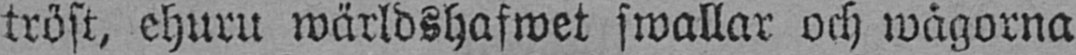tröst, ehuru wärldshafwet swallar och wågorna
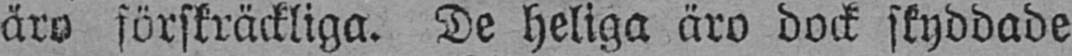äro förskräckliga. De heliga äro dock skyddade
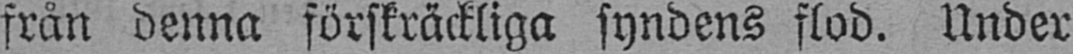från denna förskräckliga syndens flod. Under
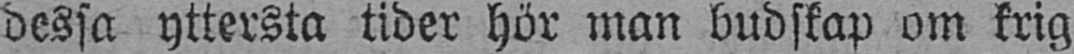dessa yttersta tider hör man budskap om krig
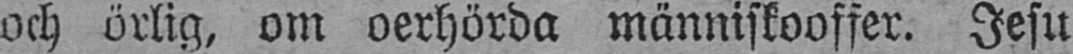och örlig, om oerhörda människooffer. Jesu
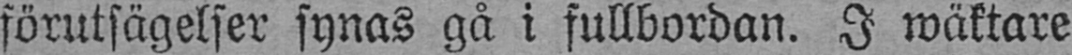förutsägelser synas gå i fullbordan. I wäktare
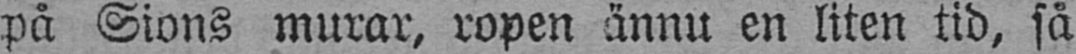på Sions murar, ropen ännu en liten tid, så
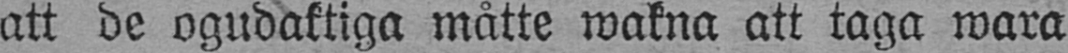att de ogudaktiga måtte wakna att taga wara
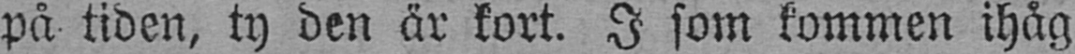på tiden, ty den är kort. I som kommen ihåg
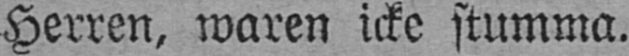Herren, waren icke stumma.
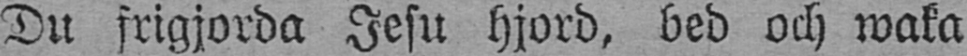Du frigjorda Jesu hjord, bed och waka
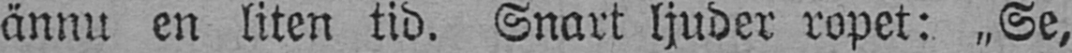ännu en liten tid. Snart ljuder ropet: „Se,
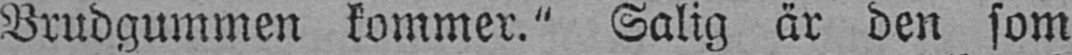Brudgummen kommer." Salig är den som
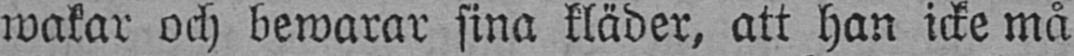wakar och bewarar sina kläder, att han icke må
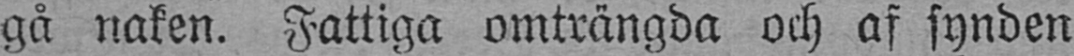gå naken. Fattiga omträngda och af synden
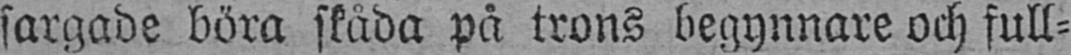sargade böra skåda på trons begynnare och full-
